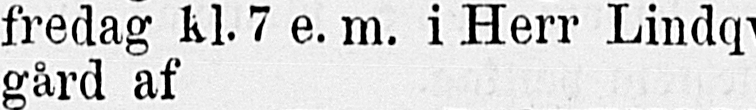gård af
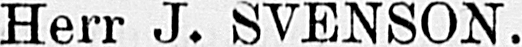Her r J. SVENSON
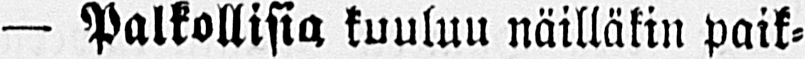— Palkollisia kuuluu näilläkin pai-
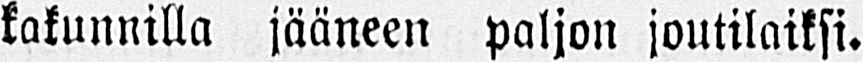kakunnilla jääneen paljon joutilaiksi.
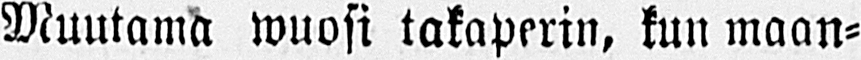Muutama wuosi takaperin, kun maan-
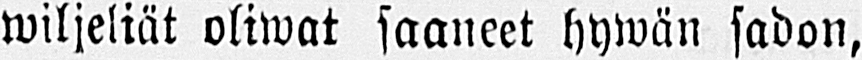wiljeliät oliwat saaneet hywän sadon,
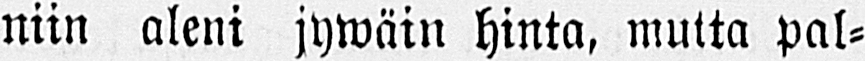niin aleni jywäin hinta, mutta pal-
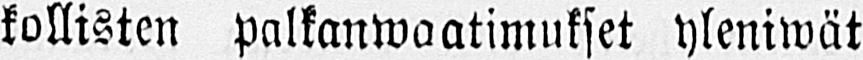kollisten palkanwaatimukset yleniwät
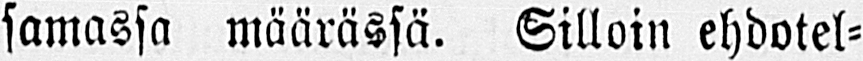samassa määrässä. Silloin ehdotel-
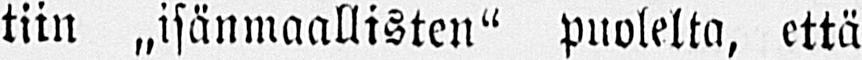tiin ˶isänmaallisten" Puolelta, että
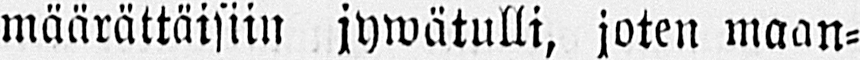määrättäisiin jywätulli, joten maan-
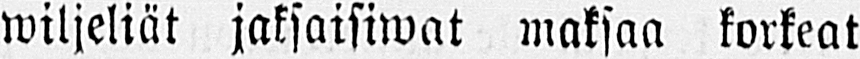wiljeliät jaksaisiwat maksaa korkeat
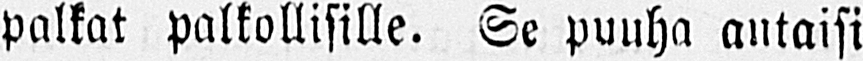palkat palkollisille. Se puuha antaisi
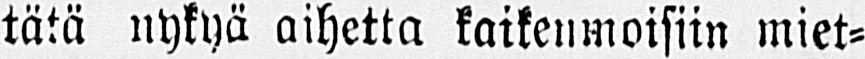tätä nykyä aihetta kaikenmoisiin miet-
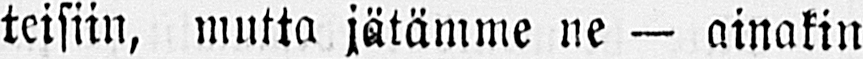teisiin, mutta jätämme ne — ainakin
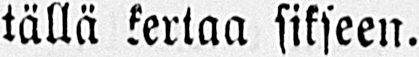tällä kertaa sikseen.
